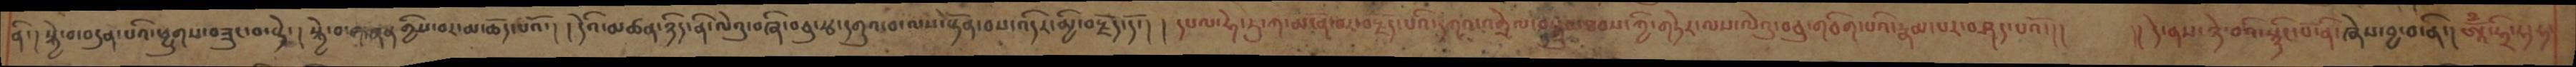ནི་།སྐྱེ་བ་བདུན་པའི་ཕྱུགས་བཟུང་བ་སྟེ་།སྐྱེ་བ་གཞན་གྱིས་བར་མཆོད་པའོ་། །དེའི་མཚན་ཉིད་ནི་ལེའུ་བཞི་བཅུ་རྩ་དགུའ་བ་ལས་སྟོན་བས་འདིར་མྱི་བརྗོད་དོ་། དཔལ་ཧེ་རུ་ཀ་མངོན་བར་བརྗོད་པའི་དཀའ་འགྲེལ་བསྒྲུབ་ཐབས་ཀྱི་གཏེར་ལས་ལེའུ་བཅུ་གཅིག་པའི་རྣམ་པར་བཤད་པོའ་།།    །།དེ་ནས་ཉེ་བའི་སྙིང་པོ་ནི་ཞེས་བྱ་བ་ནི་། ཨཱོྃ་ཧྲི་ཧ་ཧ་
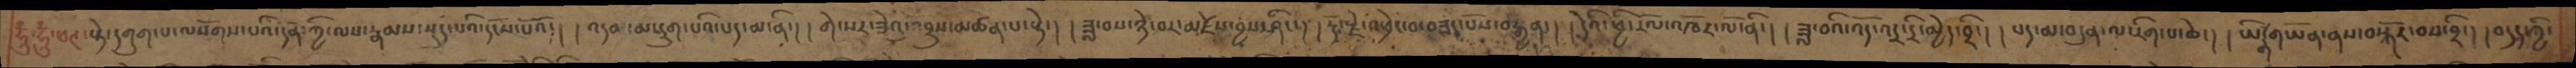ཧཱུྃ་ཧཱུྃ་ཕཊ་སྟེ་དགུག་པ་ལསོགས་པའི་དོན་ཀྱི་ལས་རྣམས་སྡུད་པའི་དངོས་པའོ། །འདམ་མ་དྲུག་པའོ་པད་མ་ནི་། །གེ་སར་ཟེའུ་འབྲུས་མཚན་པ་སྟེ་། །ཟླ་བས་ཉེ་བར་མཛེས་བྱས་ཤིང་། །རྡོ་རྗེ་འཕྲེང་བ་བཟང་པོས་བརྒྱན་། །དེའི་ཕྱི་རོལ་འཁོར་ལོ་ནི་། །ཟླ་བའི་འོད་འདྲ་དྲི་མྱེད་བྲི་། །པད་མ་བདུན་ལ་རིག་པ་ཆེ་། །ཡི་གེ་གཡོན་ནས་བསྐོར་བས་བྲི་། །བདུད་ཀྱི་
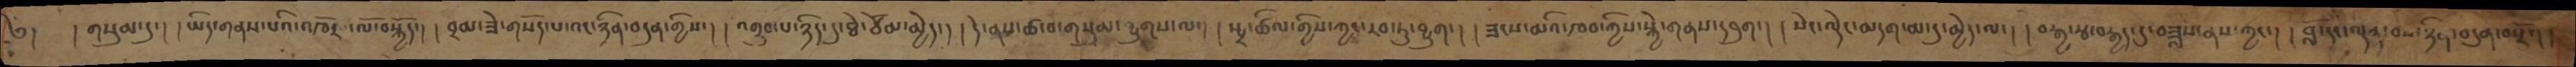༄།   །གསུམ་དུ་། །ཡིད་གནས་པའི་འཁོར་ལོ་བསྐྱོད་། ། བྲམ་ཟེ་གསོད་པ་འང་ཉིན་བདུན་གྱིས་། །འགྲུབ་པ་ཉིད་དུ་ཐེ་ཚོམ་མྱེད་། །དེ་ནས་ཚ་བ་གསུམ་བྱུགས་ལ་། །སྤྲ་ཚིལ་གྱིས་ཀྱང་རབ་ཏུ་བྱུག་། །ཟངས་མའི་ཁབ་ཀྱིས་སྐྱེ་གནས་དབུག་། །སེང་ལྡེང་མདག་མ་དུ་མྱེད་ལ་། །བརྒྱ་སྩ་བརྒྱད་དུ་བཟླས་ནས་ཀྱང་། །བློ་དང་ལྡན་པས་ཉིན་བདུན་བསྔོ་། །
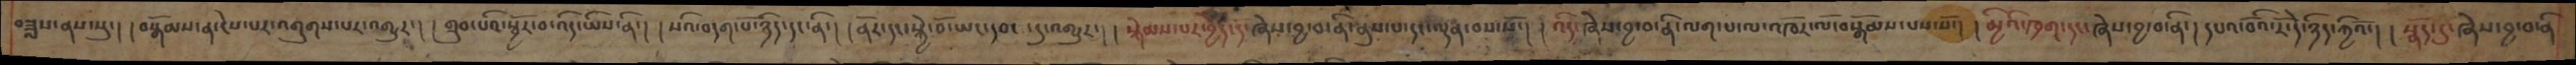བཟླས་ནས་སུ་། །བསྒོམས་ན་ངེས་པར་འགུགས་པར་འགྱུར་། ། གྲུབ་པའི་སྦྱོར་བ་འདི་ཡིས་ནི་། །སའི་བདག་པོ་ཉིད་དང་ནི་། །ནོར་དང་སྐྱེ་བོ་ཡང་དབང་དུ་འགྱུར་། །སྐེམས་པར་ཕྱེད་དོ་ཞེས་བྱ་བ་ནི་ནུས་པ་དང་ལྡན་བས་སོ་། །འདི་ཞེས་བྱ་བ་ནི་ལག་པ་ལ་འཁོར་ལོ་བསྒོམས་པས་སོ་། །མྱིའི་ཁྲག་དང་ཞེས་བྱ་བ་ནི་། དཔའ་བོའི་རོ་དེ་ཉིད་ཀྱིའོ་། ། སྣོད་དུ་ཞེས་བྱ་བ་ནི
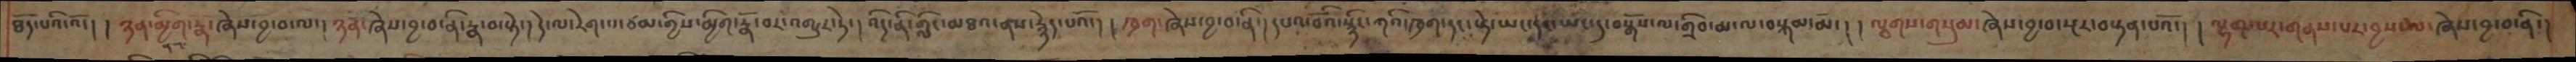ཐོད་པའི་འོ་། །ཉན་མྱིག་རྣ་ཞེས་བྱ་བ་ལ་། ཉན་ཞེས་བྱ་བ་ནི་རྣ་བ་སྟེ་། དེ་ལ་རེག་པ་ཙམ་གྱིས་མྱིག་རྣོ་བར་འགྱུར་ཏེ་། འདི་ནི་གླིང་མཐའ་ནས་རྙེད་པའོ་། ། ཁྲག་ཞེས་བྱ་བ་ནི་། དཔའ་བོའི་སྙིང་ཀའི་ཁྲག་དང་སྟེ་ཡང་དང་ཡང་དུ་བསྒོས་ལ་གྲིབ་མ་ལ་བསྐམ་མོ་། །ལྕགས་གསུམ་ཞེས་བྱ་བ་སྔར་བསྟན་པའོ་། །ལྷག་པར་གནས་པར་བྱས་ལ་ཞེས་བྱ་བ་ནི་།
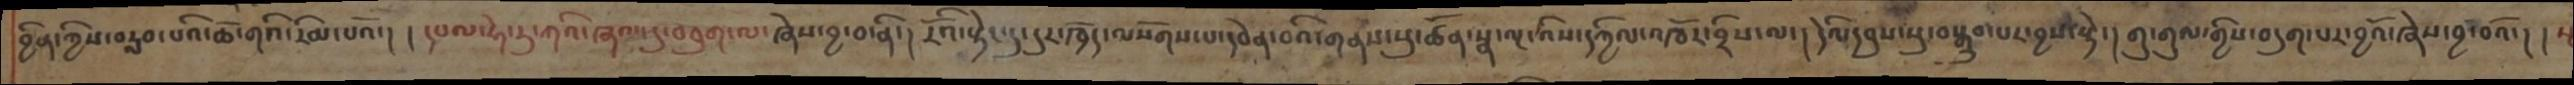བྱིན་ཀྱིས་བརླབ་པའི་ཆོ་གའི་རིམ་པའོ་། །དཔལ་ཧེ་རུ་ཀའི་ཞལ་དུ་བཅུག་ལ་ཞེས་བྱ་བ་ནི་། རོའི་སྟེང་དུ་དུར་ཁྲོད་ལསོགས་པ་དབེན་པའི་གནས་སུ་ཚོན་སྣ་ལྔ་འིས་དཀྱིལ་འཁོར་བྲིས་ལ་། དེའི་དབུས་སུ་བསྒྲུབ་པར་བྱས་སྟེ་། གུ་གུལ་གྱིས་བདུག་པར་བྱའོ་ཞེས་བྱ་བའོ་། །
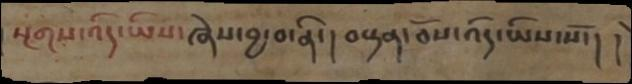སྔགས་འདི་ཡིས་ཞེས་བྱ་བ་ནི་། བསྟན་ཅོས་འདི་ཡིས་སོ་། །
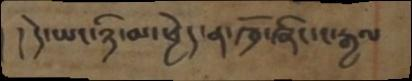། དེ་ཡང་ཉི་མ་ཕྱེད་ན་ཁྲོ་ཞིང་ང་རྒྱལ
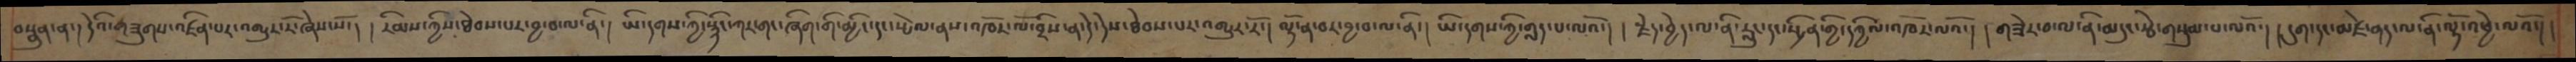བསྣུན་ན་། དེའི་གཟུགས་འཛིན་པར་འགྱུར་རོ་ཞེས་སོ་། །རིམས་ཀྱིས་ཐེབས་པར་བྱ་བ་ལ་ནི་། ཡི་དགས་ཀྱི་སྙིང་ཀར་གང་ཞིག་གི་མྱི་དེ་དང་སྤེལ་ནས་འཁོར་ལོ་བྲིས་ན་དེ་དེས་ཐེབས་པར་འགྱུར་རོ་། ལྟོ་ན་བར་བྱ་བ་ལ་ནི་། ཡི་དགས་ཀྱི་གླད་པ་ལའོ་། །རྗེད་བྱེད་ལ་ནི་རླུང་དང་སྤྲིན་གྱི་དཀྱིལ་འཁོར་ལའོ་། གཟེར་བ་ལ་ནི་མདུང་རྩེ་གསུམ་པ་ལའོ་། །དུག་དང་མཛེ་ནད་ལ་ནི་ལྟོ་འཕྱེ་ལའོ་།
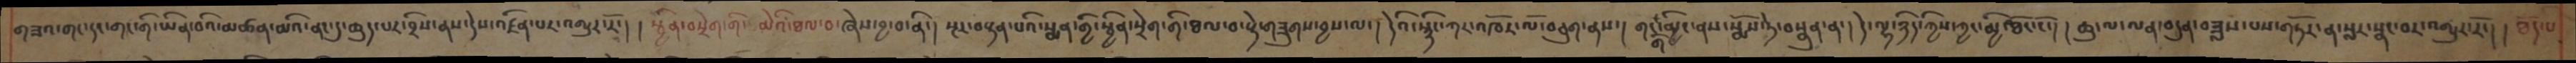གཟའ་གང་དང་གང་གི་ཡིན་པའི་མཚན་མའི་ནང་དུ་ཆུད་པར་བྲིས་ནས་དེས་འཛིན་པར་འགྱུར་རོ་། ། སྦྱིན་བསྲེག་གི་ མེའི་ཐལ་བ་ཞེས་བྱ་བ་ནི་། སྔར་བསྟན་པའི་སྨན་གྱི་སྦྱིན་སྲེག་གི་ཐལ་བ་སྟེ་གཟུགས་བྱས་ལ། དེའི་སྙིང་ཀར་འཁོར་ལོ་བཅུག་ནས་། གང་གི་མྱིང་ནས་སྨོས་ཏེ་བསྣུན་ན་། དེ་ལྷ་ཉིད་ཀྱིས་ཀྱང་མྱི་ཐོང་ངོ་། ། ཆུ་ལ་ལན་བདུན་བཟླས་པས་གཏོར་ན་སླར་སྣང་བར་འགྱུར་རོ་། ། ཐོད་པ
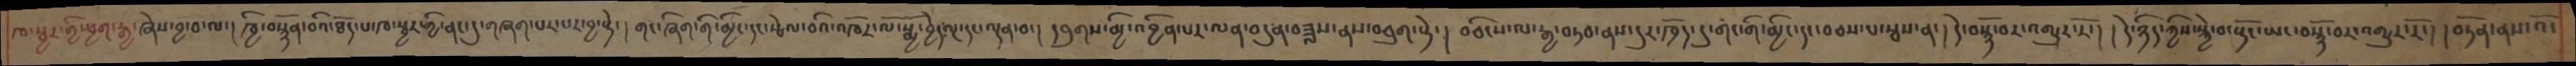ཁ་སྦྱར་གྱི་ཕྱག་རྒྱ་ཞེས་བྱ་བ་ལ་། ཁྱི་བསྙོན་བའི་ཐོད་པ་ཁ་སྦྱར་གྱི་ནང་དུ་གཞག་པར་པར་བྱ་སྟེ་། གང་ཞིག་གི་མྱིང་དང་སྤེལ་བའི་འཁོར་ལོ་སྨྱོ་བྱེད་ལྔ་དང་ལྡན་པ་། དབུགས་མྱི་འབྱིན་པར་ལན་བདུན་བཟླས་ནས་བཅུག་སྟེ་། བཅིངས་ལ་རྒྱ་བཏབ་ནས་དུར་ཁྲོད་དུ་གང་གི་མྱིང་དང་བཅས་པ་སྦས་ན་། དེ་བསྙོ་བར་འགྱུར་རོ་། །དེ་ཉིད་ཀྱིས་སྐྱེ་བ་སྟོང་ཡང་བསྙོ་བར་འགྱུར་རོ་། །བཏོན་ནས་འོ་
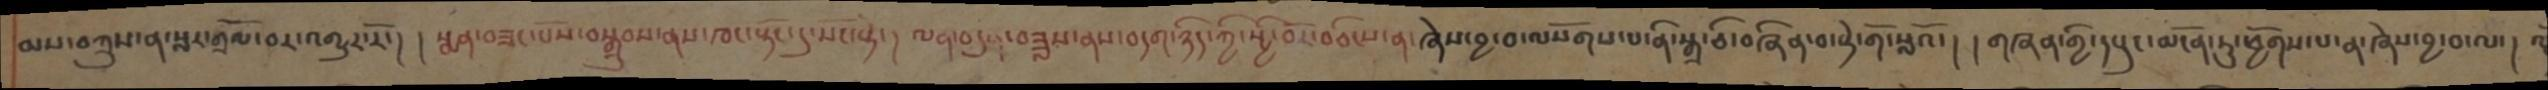མས་བཀྲུས་ན་སླར་གྲོལ་བར་འགྱུར་རོ་། །སྨན་བཟང་པོས་བསྒྲུབས་ནས་ཁང་སྟོང་དུ་སོང་སྟེ་། ལན་བདུན་བཟླས་ནས་བདག་ཉིད་ཀྱི་སྤྱི་བོར་བཅིངས་ན་ཞེས་བྱ་བ་ལསོགས་པ་ནི་སྒྲ་ཅི་བཞིན་བ་སྟེ་གོ་སླའོ་། །གཞན་གྱི་དཔུང་མངོན་ཏུ་ཕྱོགས་པ་ན་ཞེས་བྱ་བ་ལ་། འོ
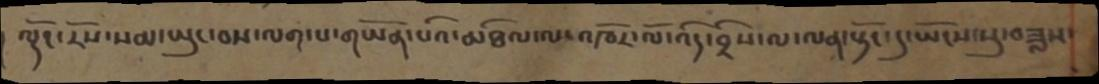ལྡོང་རོས་སམ་སྤུང་བས་ལག་པ་གཡོན་པའི་མཐིལ་ལ་འཁོར་ལོ་འདི་བྲིས་ལ་ལན་སྟོང་དུ་ཡོངས་སུ་བཟླས་
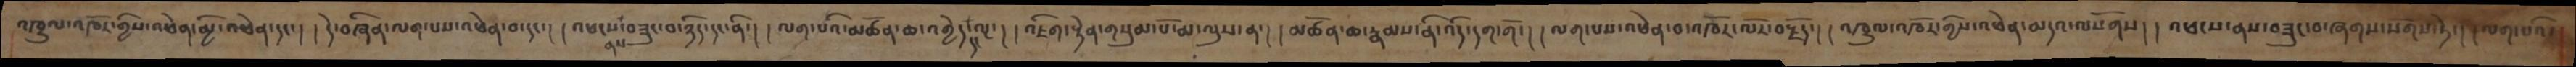འཁྲུལ་འཁོར་གྱིས་འཕེན་མྱི་འཕེན་དང་། ། དེ་བཞིན་ལག་པས་འཕེན་བ་དང་། །འཕངས་ནས་བཟུང་བ་ཉིད་དང་ནི་། ། ལག་པའི་མཚོན་ཆ་འགྱེད་དང་ལྔ་། ། འཇིག་རྟེནན་གསུམ་པོ་མ་ལུས་ན་། །མཚོན་ཆ་རྣམས་ནི་འདི་དག་གོ་། །ལག་པས་འཕེན་བ་འཁོར་ལོར་བརྗོད་། ། འཁྲུལ་འཁོར་གྱིས་འཕེན་མདའ་ལསོགས། ། འཕངས་ནས་བཟུང་བ་ཞགས་སོགས་ཏེ་། །ལག་པའི་
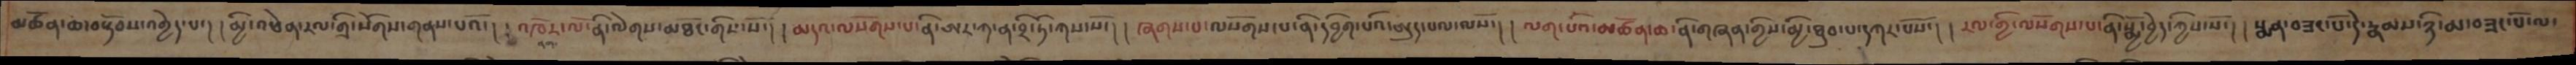མཚོན་ཆ་བསྟོབས་འགྱེད་པ་། །མྱི་འཕེན་རལ་གྲི་སོགས་གནས་པའོ། ། འཁོར་ལོ་ནི་ལེགས་མཐོང་གིས་སོ་། །མདའ་ལསོགས་པ་ནི་ཨར་ཀ་ན་བྲི་ཏི་ཀས་སོ་། ། ཞགས་པ་ལསོགས་པ་ནི་དབྱིག་པའི་ཨུད་པལ་ལསོ་། ། ལག་པའི་མཚོན་ཆ་ནི་གཞན་གྱིས་མྱི་ཐུབ་པ་དཀར་པོས་། ། རལ་གྱི་ལསོགས་པ་ནི་སྨྱོ་བྱེད་ཀྱིས་སོ་། །སྨན་བཟང་པོ་དེ་རྣམས་ཉི་མ་བཟང་པོ་ལ་
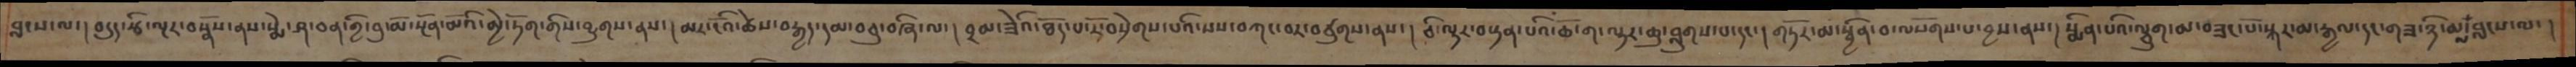བླངས་ལ་། བདུད་རྩི་ལྔར་བསྣོས་ནས་སྨེ་ཤ་ཅན་གྱི་བུ་མོ་སྔོན་མོའི་མྱེ་ཏོག་གིས་བྱུགས་ནས་།མར་ངོའི་ཚེས་བརྒྱད་དམ་བཅུ་བཞི་ལ་། བྲམ་ཟེའི་ཐོད་པ་རོ་བསྲེགས་པའི་སས་བཀང་བར་བཙུགས་ནས་། ཅི་ལྟར་བསྟན་པའི་ཆོ་ག་ལྟར་ཆུ་བླུགས་པ་དང་། གཏོར་མ་སྦྱིན་བ་ལསོགས་པ་བྱས་ནས་། སྨིན་པའི་ལྕུག་མ་བཟང་པོ་སྐར་མ་རྒྱལ་དང་གཟ་ཉི་མ་ལ་བླངས་ལ་ །
